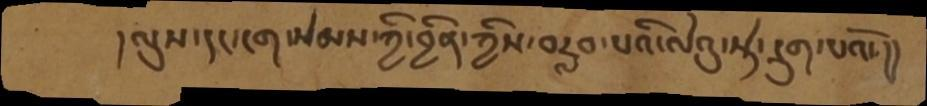།  ལུས་དང་ངག་སེམས་ཀྱི་བྱིན་ཀྱིས་བརླབ་པའི་ལེའུ་སྟེ་དྲུག་པའོ་།།
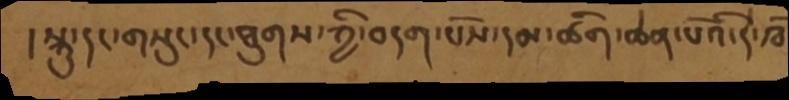།སྐུ་དང་གསུང་དང་ཐུགས་ཀྱི་བདག་པོས་དམ་ཚིག་ཆེན་པོའི་དེ་ཁོ
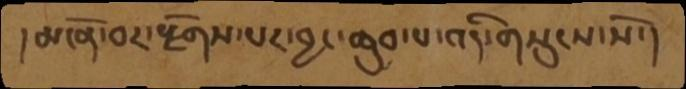། མངོན་བར་རྫོགས་པར་བྱང་ཆུབ་པ་འདི་གསུངས་སོ་ །
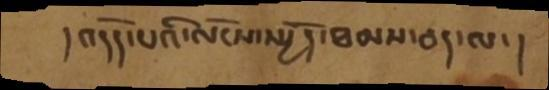། འདོད་པའི་ལོངས་སྤྱོད་ཐམས་ཅད་ལ་ །
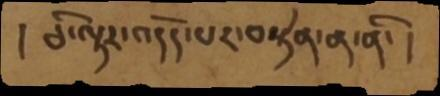། ཅི་ལྟར་འདོད་པར་བསྟེན་ན་ནི་།
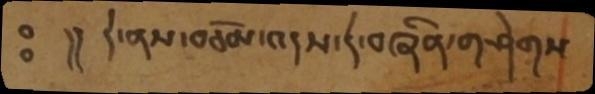ཿ      །།  དེ་ནས་བཅོམ་འདས་དེ་བཞིན་གཤེགས་
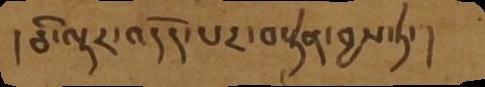།ཅི་ལྟར་འདོད་པར་བསྟེན་བྱས་ཏེ་།
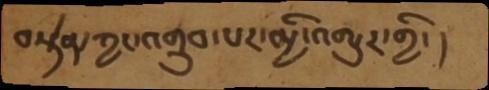བསྟེན་ཀྱང་འགྲུབ་པར་མྱི་འགྱུར་གྱི་།
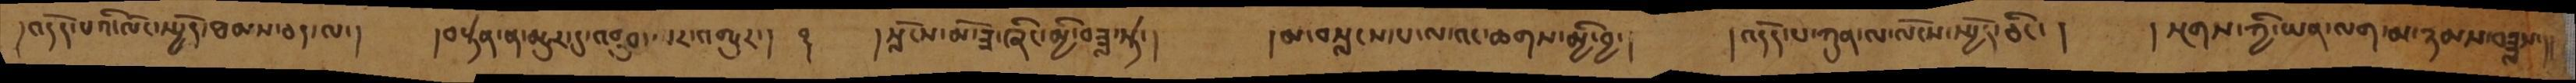།འདོད་པའི་ལོང་སྤྱོད་ཐམས་ཅད་ལ་།  །བསྟེན་ན་མྱུར་དུ་འགྲུབ་པར་འགྱུར་།   ࿑    སློངས་མོ་ཟ་ཞིང་མྱི་བཟླ་སྟེ་།   །མ་བསླངས་པ་ལ་འང་ཆགས་མྱི་བྱ་།   །འདོད་པ་ཀུན་ལ་ལོངས་སྤྱོད་ཅིང་།   །སྔགས་ཀྱི་ཡན་ལག་མ་ཉམས་བཟླས་།།
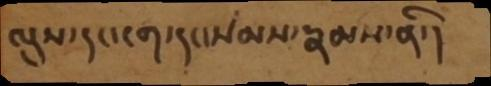ལུས་དང་ངག་དང་སེམས་རྣམས་ནི་།
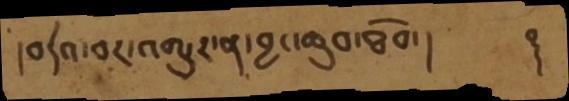།བདེའ་བར་འགྱུར་ན་བྱང་ཆུབ་ཐོབ་།     ࿑
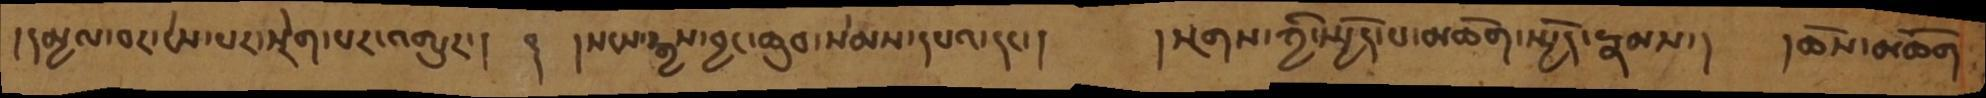།དམྱལ་བར་ངེས་པར་སྲེག་པར་འགྱུར་།  ࿑   །སངས་རྒྱས་བྱང་ཆུབ་སེམས་དཔའ་དང་།    །སྔགས་ཀྱི་སྤྱོད་པ་མཆོག་སྤྱོད་རྣམས་།   །ཆོས་མཆོག
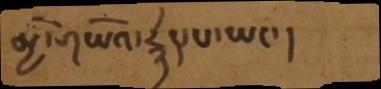མྱི་གཡོའ་རྙེད་པ་ཡང་།
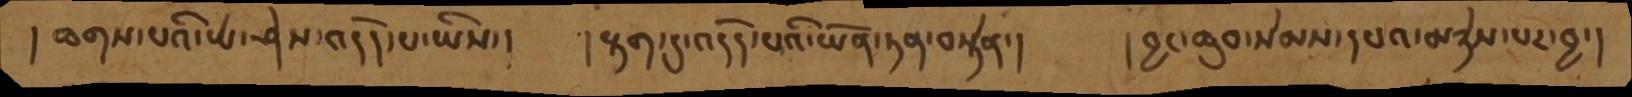།ཆགས་པའི་ཡེ་ཤེས་འདོད་པ་ཡིས་།   །རྟག་དུ་འདོད་པའི་ཡོན་ཏན་བསྟེན་།   །བྱང་ཆུབ་སེམས་དཔའ་མཉེས་པར་བྱ་།
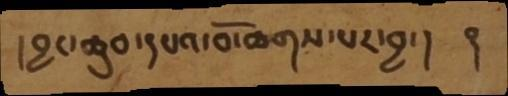།བྱང་ཆུབ་དཔའ་བོ་ཆགས་པར་བྱ་།    ࿑
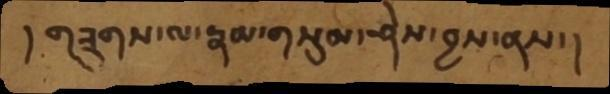།གཟུགས་ལ་རྣམ་གསུམ་ཤེས་བྱས་ནས་།
